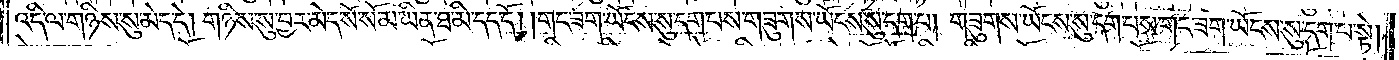འདི་ལ་གཉིས་སུ་མེད་དེ། གཉིས་སུ་བྱར་མེད་སོ་སོ་མ་ཡིན་ཐ་མི་དད་དོ། །གང་ཟག་ཡོངས་སུ་དག་པས་གཟུགས་ཡོངས་སུ་དག་པ། གཟུགས་ཡོངས་སུ་དག་པས་གང་ཟག་ཡོངས་སུ་དག་པ་སྟེ།
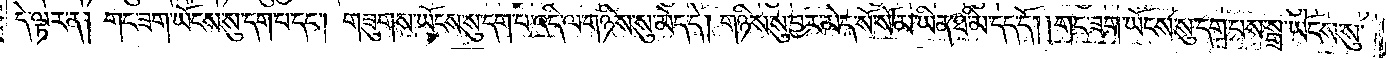དེ་ལྟར་ན། གང་ཟག་ཡོངས་སུ་དག་པ་དང༌། གཟུགས་ཡོངས་སུ་དག་པ་འདི་ལ་གཉིས་སུ་མེད་དེ། གཉིས་སུ་བྱར་མེད་སོ་སོ་མ་ཡིན་ཐ་མི་དད་དོ། །གང་ཟག་ཡོངས་སུ་དག་པས་སྒྲ་ཡོངས་སུ་
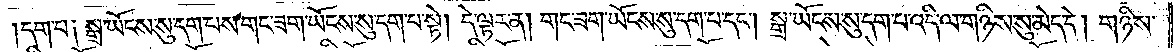དག་པ༑ སྒྲ་ཡོངས་སུ་དག་པས་གང་ཟག་ཡོངས་སུ་དག་པ་སྟེ། དེ་ལྟར་ན། གང་ཟག་ཡོངས་སུ་དག་པ་དང༌། སྒྲ་ཡོངས་སུ་དག་པ་འདི་ལ་གཉིས་སུ་མེད་དེ། གཉིས་
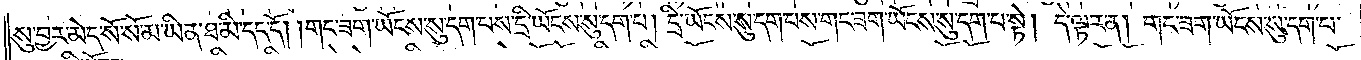སུ་བྱར་མེད་སོ་སོ་མ་ཡིན་ཐ་མི་དད་དོ། །གང་ཟག་ཡོངས་སུ་དག་པས་དྲི་ཡོངས་སུ་དག་པ། དྲི་ཡོངས་སུ་དག་པས་གང་ཟག་ཡོངས་སུ་དག་པ་སྟེ། དེ་ལྟར་ན། གང་ཟག་ཡོངས་སུ་དག་པ་
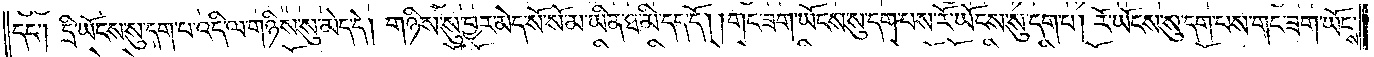དང༌། དྲི་ཡོངས་སུ་དག་པ་འདི་ལ་གཉིས་སུ་མེད་དེ། གཉིས་སུ་བྱར་མེད་སོ་སོ་མ་ཡིན་ཐ་མི་དད་དོ། །གང་ཟག་ཡོངས་སུ་དག་པས་རོ་ཡོངས་སུ་དག་པ། རོ་ཡོངས་སུ་དག་པས་གང་ཟག་ཡོངས་
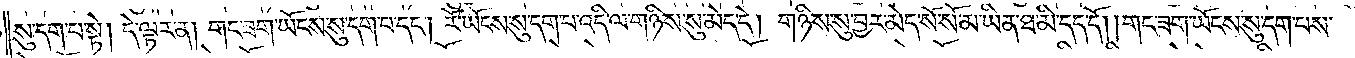སུ་དག་པ་སྟེ། དེ་ལྟར་ན། གང་ཟག་ཡོངས་སུ་དག་པ་དང༌། རོ་ཡོངས་སུ་དག་པ་འདི་ལ་གཉིས་སུ་མེད་དེ། གཉིས་སུ་བྱར་མེད་སོ་སོ་མ་ཡིན་ཐ་མི་དད་དོ། །གང་ཟག་ཡོངས་སུ་དག་པས་
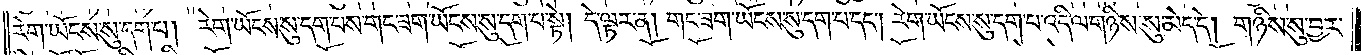རེག་ཡོངས་སུ་དག་པ། རེག་ཡོངས་སུ་དག་པས་གང་ཟག་ཡོངས་སུ་དག་པ་སྟེ། དེ་ལྟར་ན། གང་ཟག་ཡོངས་སུ་དག་པ་དང༌། རེག་ཡོངས་སུ་དག་པ་འདི་ལ་གཉིས་སུ་མེད་དེ། གཉིས་སུ་བྱར་
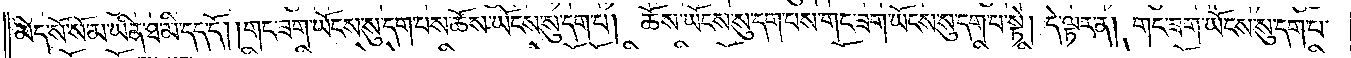མེད་སོ་སོ་མ་ཡིན་ཐ་མི་དད་དོ། །གང་ཟག་ཡོངས་སུ་དག་པས་ཆོས་ཡོངས་སུ་དག་པ། ཆོས་ཡོངས་སུ་དག་པས་གང་ཟག་ཡོངས་སུ་དག་པ་སྟེ། དེ་ལྟར་ན། གང་ཟག་ཡོངས་སུ་དག་པ་
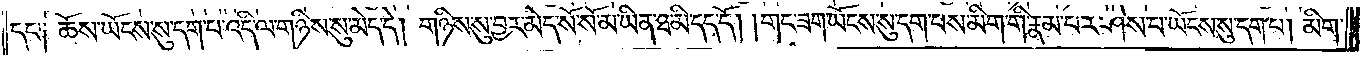དང༌༑ ཆོས་ཡོངས་སུ་དག་པ་འདི་ལ་གཉིས་སུ་མེད་དེ། གཉིས་སུ་བྱར་མེད་སོ་སོ་མ་ཡིན་ཐ་མི་དད་དོ། །གང་ཟག་ཡོངས་སུ་དག་པས་མིག་གི་རྣམ་པར་ཤེས་པ་ཡོངས་སུ་དག་པ། མིག་
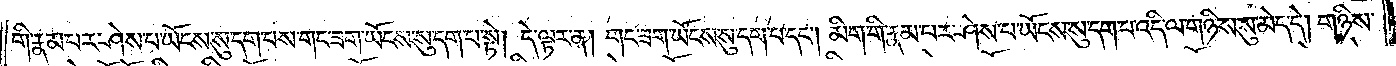གི་རྣམ་པར་ཤེས་པ་ཡོངས་སུ་དག་པས་གང་ཟག་ཡོངས་སུ་དག་པ་སྟེ། དེ་ལྟར་ན། གང་ཟག་ཡོངས་སུ་དག་པ་དང༌། མིག་གི་རྣམ་པར་ཤེས་པ་ཡོངས་སུ་དག་པ་འདི་ལ་གཉིས་སུ་མེད་དེ། གཉིས་
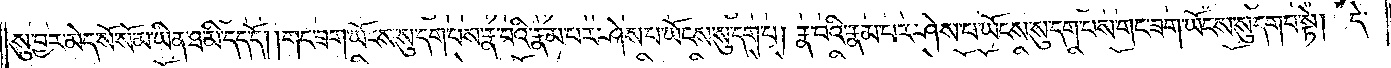སུ་བྱར་མེད་སོ་སོ་མ་ཡིན་ཐ་མི་དད་དོ། །གང་ཟག་ཡོངས་སུ་དག་པས་རྣ་བའི་རྣམ་པར་ཤེས་པ་ཡོངས་སུ་དག་པ། རྣ་བའི་རྣམ་པར་ཤེས་པ་ཡོངས་སུ་དག་པས་གང་ཟག་ཡོངས་སུ་དག་པ་སྟེ། དེ་
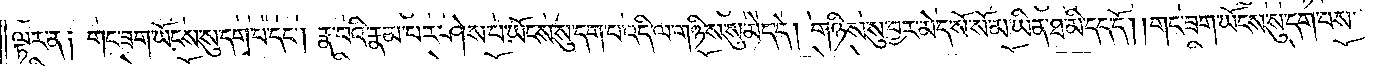ལྟར་ན༑ གང་ཟག་ཡོངས་སུ་དག་པ་དང༌། རྣ་བའི་རྣམ་པར་ཤེས་པ་ཡོངས་སུ་དག་པ་འདི་ལ་གཉིས་སུ་མེད་དེ། གཉིས་སུ་བྱར་མེད་སོ་སོ་མ་ཡིན་ཐ་མི་དད་དོ། །གང་ཟག་ཡོངས་སུ་དག་པས་
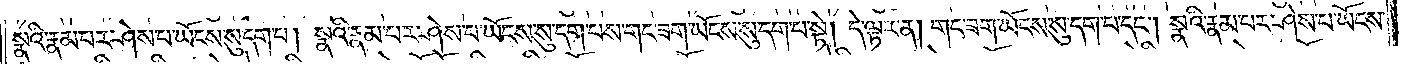སྣའི་རྣམ་པར་ཤེས་པ་ཡོངས་སུ་དག་པ། སྣའི་རྣམ་པར་ཤེས་པ་ཡོངས་སུ་དག་པས་གང་ཟག་ཡོངས་སུ་དག་པ་སྟེ། དེ་ལྟར་ན། གང་ཟག་ཡོངས་སུ་དག་པ་དང༌། སྣའི་རྣམ་པར་ཤེས་པ་ཡོངས་
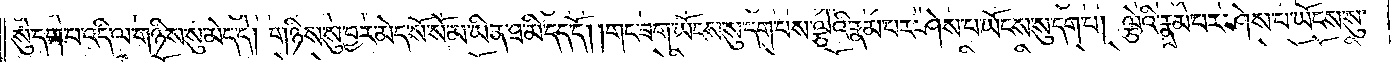སུ་དག་པ་འདི་ལ་གཉིས་སུ་མེད་དེ། གཉིས་སུ་བྱར་མེད་སོ་སོ་མ་ཡིན་ཐ་མི་དད་དོ། །གང་ཟག་ཡོངས་སུ་དག་པས་ལྕེའི་རྣམ་པར་ཤེས་པ་ཡོངས་སུ་དག་པ། ལྕེའི་རྣམ་པར་ཤེས་པ་ཡོངས་སུ་
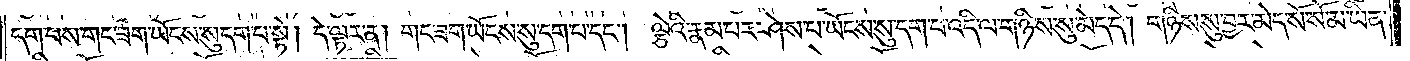དག་པས་གང་ཟག་ཡོངས་སུ་དག་པ་སྟེ། དེ་ལྟར་ན། གང་ཟག་ཡོངས་སུ་དག་པ་དང༌། ལྕེའི་རྣམ་པར་ཤེས་པ་ཡོངས་སུ་དག་པ་འདི་ལ་གཉིས་སུ་མེད་དེ། གཉིས་སུ་བྱར་མེད་སོ་སོ་མ་ཡིན་
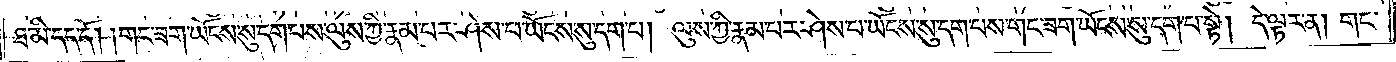ཐ་མི་དད་དོ། །གང་ཟག་ཡོངས་སུ་དག་པས་ལུས་ཀྱི་རྣམ་པར་ཤེས་པ་ཡོངས་སུ་དག་པ། ལུས་ཀྱི་རྣམ་པར་ཤེས་པ་ཡོངས་སུ་དག་པས་གང་ཟག་ཡོངས་སུ་དག་པ་སྟེ། དེ་ལྟར་ན། གང་
